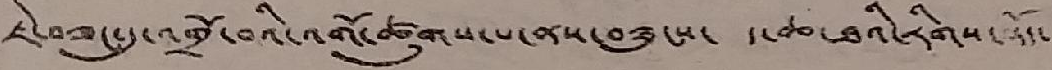ཇེ་བཟང་དུ་འགྲོ་བའི་འགོ་ཚུགས་པ་ནས་བཟུངས་ ད་ཆ་ཐའི་རིགས་སྡོད་
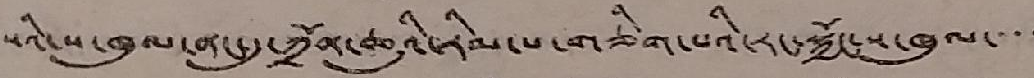སའི་ས་ཁུལ་ནང་དུ་ཀྲོན་ཆུའི་རིམ་པ་གཅིག་པའི་རང་སྐྱོང་ས་ཁུལ་་་་
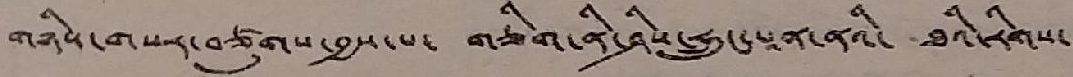གཉིས་གསར་བཙུགས་བྱས་པ་ གཅིག་ནི་ཤིས་ཧྲུང་པཱནའི་ ཐའི་རིགས་
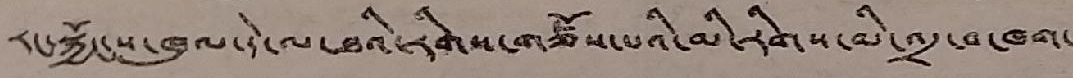རང་སྐྱོང་ས་ཁུལ་དེ་ལ་ཐའི་རིགས་བཙོས་པའི་མི་རིགས་མི་འདྲ་བ་ཁག་
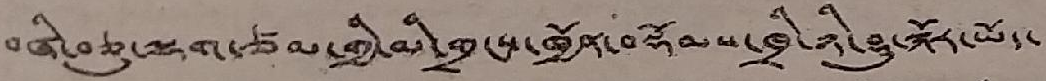བཞི་བཅུ་ལྷག་ཙམ་གྱི་མི་གྲངས་ཁྱོན་བསྡོམས་ཁྲི་ཉི་ཤུ་སྐོར་ཡོད་
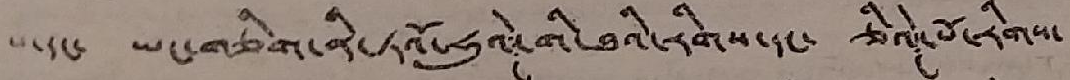པ་དང་ ཡང་གཅིག་ནི་ཏའོ་ཧུའེ་གི་ཐའི་རིགས་དང་ ཅིའི་པོ་རིགས་
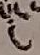ང
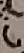ང
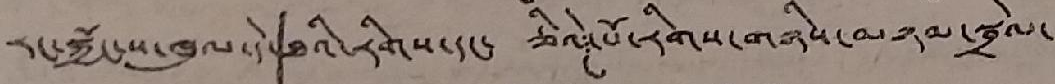རང་སྐྱོང་ས་ཁུལ་དེ་ཐའི་རིགས་དང་ ཅིའེ་པོ་རིགས་གཉིས་མཉམ་སྦྲེལ་
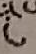ང
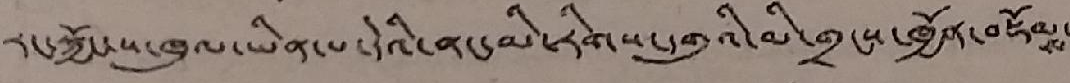རང་སྐྱོང་ས་ཁུལ་ཡིན་པ་དེའི་ནང་མི་རིགས་དགུའི་མི་གྲངས་ཁྱོན་བསྡོམས་
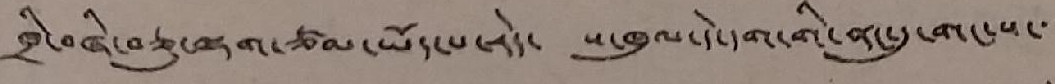ཁྲི་བཞི་བཅུ་ལྷག་ཙམ་ཡོད་པ་རེད་ ས་ཁུལ་དེ་དག་གི་ནང་དུ་གང་ས་་་
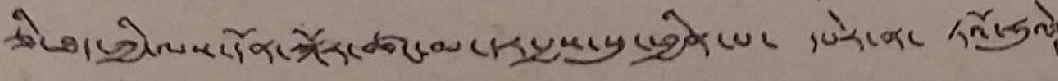ཅི་ཐད་ཀྱི་ལས་དོན་སྐོར་ཚང་མ་དར་རྒྱས་སུ་ཕྱིན་པ་ དཔེར་ན་ ཏའོ་ཧུའེ་
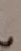ང
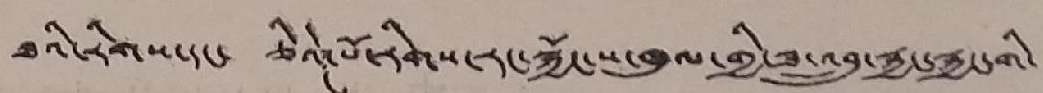ཐའི་རིགས་དང་ ཅིའེ་པོ་རིགས་རང་སྐྱོང་ས་ཁུལ་གྱི་ཟ་འབྲུ་རྐྱང་རྐྱང་གི་
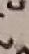ང
